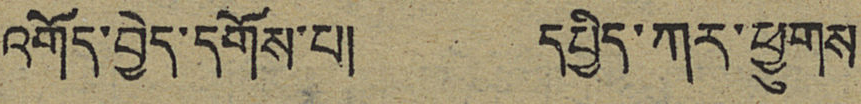འགོད་བྱེད་དགོས་པ། དཔྱིད་ཀར་ཕྱུགས
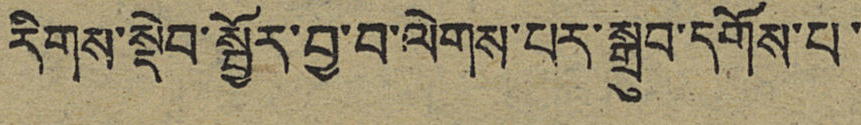རིགས་སྡེབ་སྦྱོར་བྱ་བ་ལེགས་པར་སྒྲུབ་དགོས་པ་
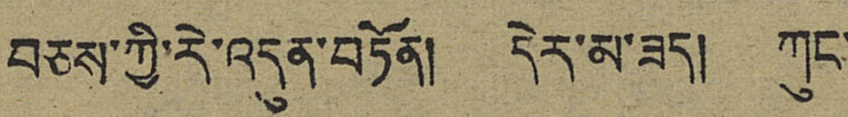བཅས་ཀྱི་རེ་འདུན་བཏོན། དེར་མ་ཟད། ཀུང་
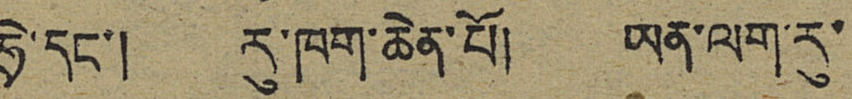ཧྲེ་དང་། རུ་ཁག་ཆེན་པོ། ཡན་ལག་རུ་
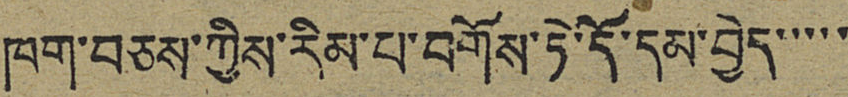ཁག་བཅས་ཀྱིས་རིམ་པ་བགོས་ཏེ་དོ་དམ་བྱེད་་་་་
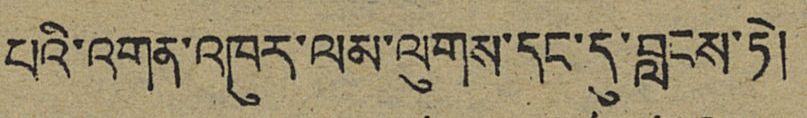པའི་འགན་འཁུར་ལམ་ལུགས་དང་དུ་བླངས་ཏེ།
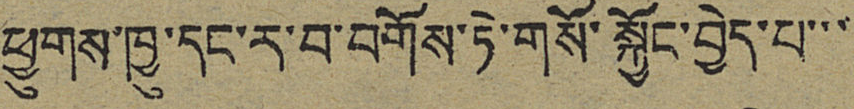ཕྱུགས་ཁྱུ་དང་ར་བ་བགོས་ཏེ་གསོ་སྐྱོང་བྱེད་པ་་་
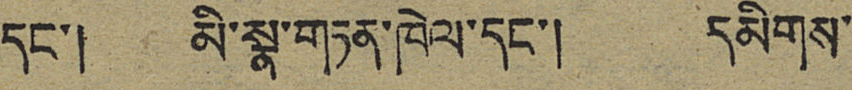དང་། མི་སྣ་གཏན་ཁེལ་དང་། དམིགས་
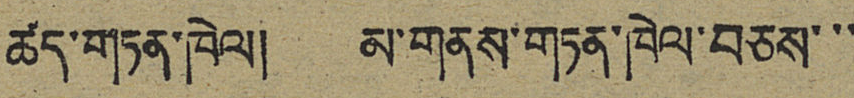ཚད་གཏན་ཁེལ། མ་གནས་གཏན་ཁེལ་བཅས་་་
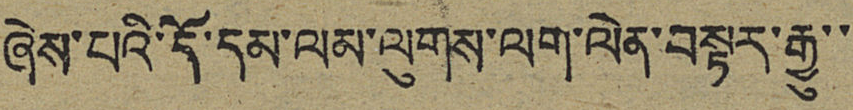ཞེས་པའི་དོ་དམ་ལམ་ལུགས་ལག་ལེན་བསྟར་རྒྱུ་་
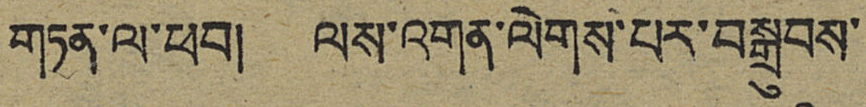གཏན་ལ་ཕབ། ལས་འགན་ལེགས་པར་བསྒྲུབས་
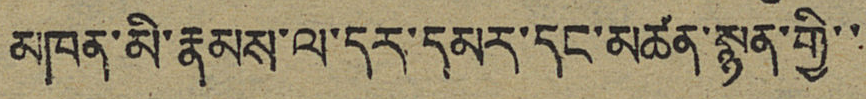མཁན་མི་རྣམས་ལ་དར་དམར་དང་མཚན་སྙན་གྱི་་
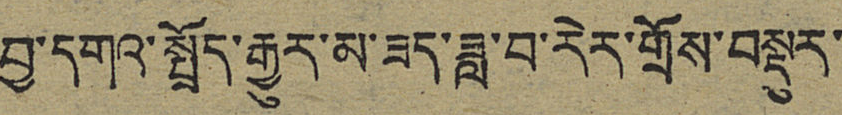བྱ་དགའ་སྤྲོད་རྒྱུར་མ་ཟད་ཟླ་བ་རེར་གྲོས་བསྡུར་
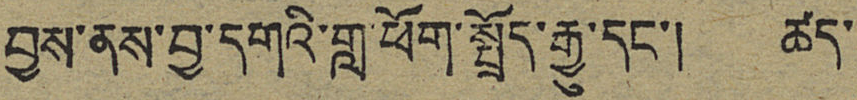བྱས་ནས་བྱ་དགའི་གླ་ཕོག་སྤྲོད་རྒྱུ་དང་། ཚད་
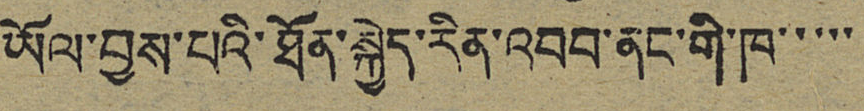ཡོལ་བྱས་པའི་ཐོན་སྐྱེད་རིན་འབབ་ནང་གི་ཁ་་་་་
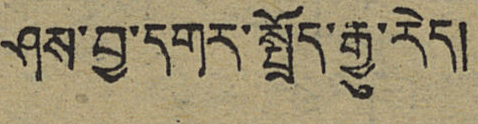ཤས་བྱ་དགར་སྤྲོད་རྒྱུ་རེད།
